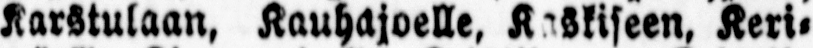Karstulaan, Kauhajoelle, Kaskiseen, Keri-
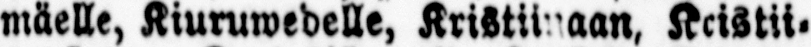mäelle, Kiuruwedelle, Kristiinaan, Kcistii-
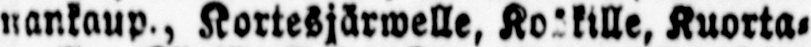nankaup , Kortesjärwelle, Koskille, Kuorta-
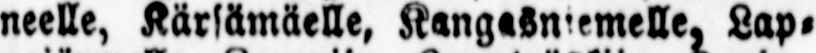neelle, Kärsämäelle, Kangasniemelle, Lap-
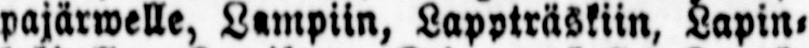pajärwelle, Lampiin, Lappträskiin, Lapin-
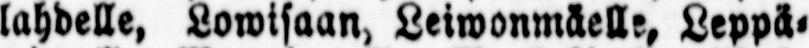lahdelle, Lowisaan, Leiwonmäelle, Leppä-
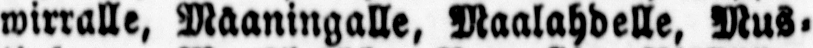wirralle, Maaningalle, Maalahdelle, Mus-
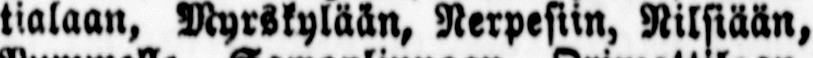tialaan, Myrskylään, Nerpesiin, Nilsiään,
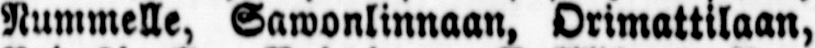Nummelle, Sawonlinnaan, Orimattilaan,
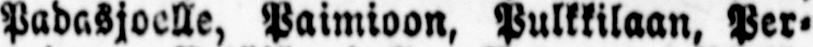Padasjoelle, Paimioon, Pulkkilaan, Per-
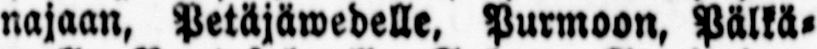najaan, Petäjäwedelle, Purmoon, Pälkä-
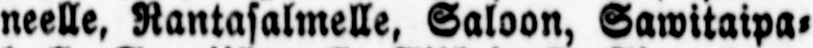neelle, Rantasalmelle, Saloon, Sawitaipa-
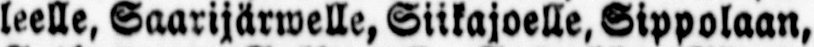leelle, Saarijärwelle, Siikajoelle, Sippolaan,
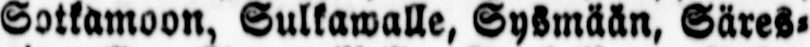Soikamoon, Sulkawalle, Sysmään, Säres-
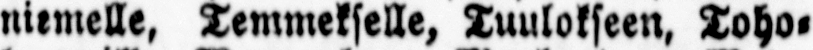niemelle, Temmekselle, Tuulokseen, Toho-
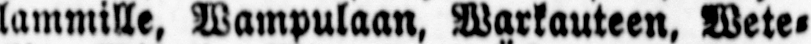lammille, Wampulaan, Warkauteen, Wete-
